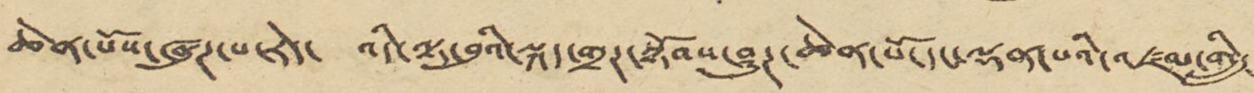ཆེན་པོས་ཞུཊ་པ་རེད་ འདི་ལྟ་བུའི་སྐད་གྲཊ་སྟོབས་ཤུཊ་ཆེན་པོ་དང་ལྡན་པའི་འཛམ་གླིང་
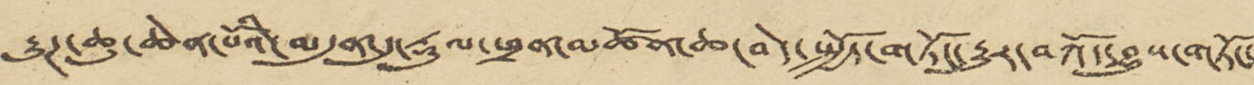རྒྱུཊ་ཆུ་ཆེན་པོའི་མདུན་དུ་རྡུལ་ཕྲན་མཚོན་ཆ་བེད་སྤྱོད་གཏོང་རྒྱུར་བཀོད་བྱུས་གཏོང་་
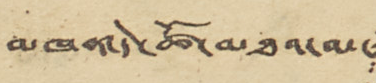མཁན་དེ་ཚོ་མཐའ་མ་
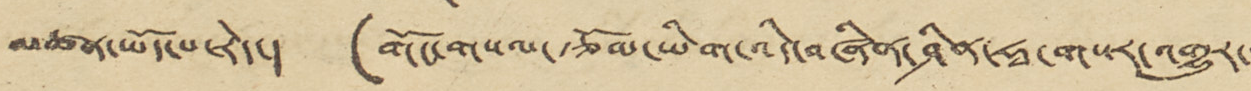མཚན་ཡོད་པ་རེད་། ་(གོང་གསལ་རྩོམ་ཡིག་འདི་བཞིན་ཤིན་ཧྭ་གསར་འགྱུར་་་
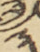༣
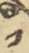༡
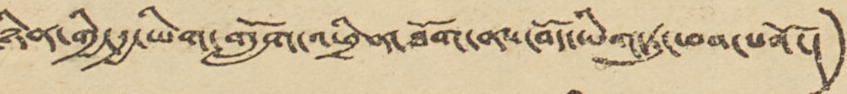ཉིན་གྱི་རྒྱ་ཡིག་གློག་འཕྲིན་ཐོག་ནས་བོད་ཡིག་ཏུ་ཕབ་པའོ་།)
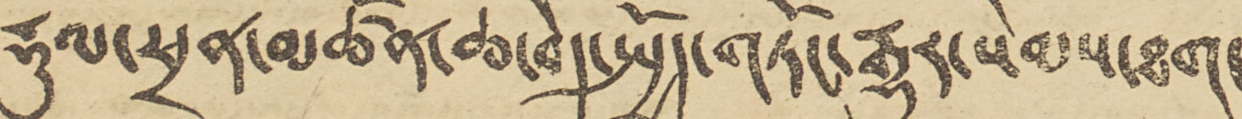རྡུལ་ཕྲན་མཚོན་ཆ་བེད་སྤྱོད་གཏོང་རྒྱུར་སེམས་ཐག་
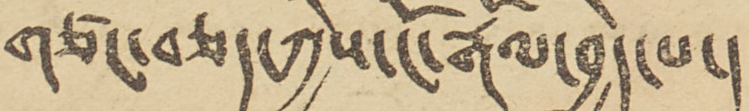གཙང་བཅད་ཀྱིས་ངོ་རྒོལ་བྱེད་པ་།
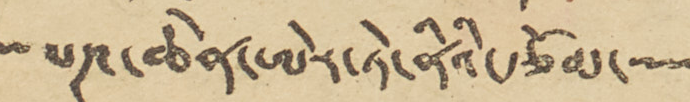པཎ་ཆེན་ཨེར་ཏེ་ནིའི་རྩོམ་
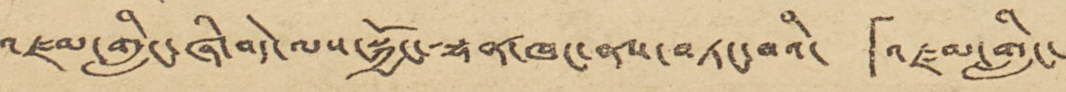འཛམ་གླིང་ཞི་བདེ་ལས་སྐྱོང་ལྷན་ཁང་ནས་བཏང་བའི་ 「འཛམ་གླིང་
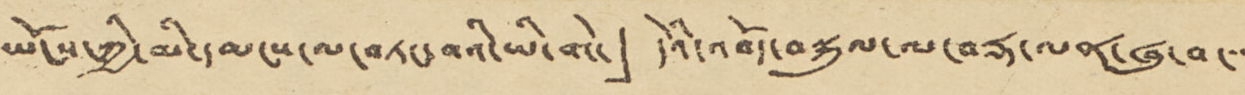ཡོངས་ཀྱི་མི་དམངས་ལ་བཏང་བའི་ཡི་གེ་」 དེའི་འབོད་བསྐུལ་ལ་བརྡ་ལན་ཞུ་བ་་་
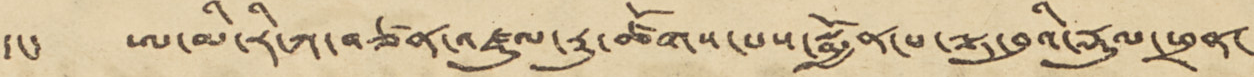དང་ ཨ་མི་རི་ཀ་བཙན་འཛུལ་རུ་ཚོགས་པས་སྨྱོན་པ་ལྟ་བུའི་རྡུལ་ཕྲན་
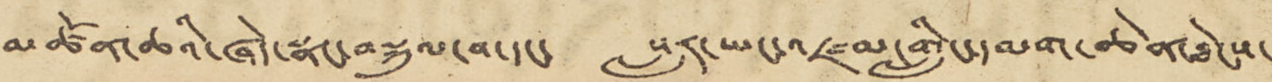མཚོན་ཆའི་ཞེད་སྣང་བསྐུལ་བ་དང་ སླར་ཡང་འཛམ་གླིང་དམག་ཆེན་ཐེངས་
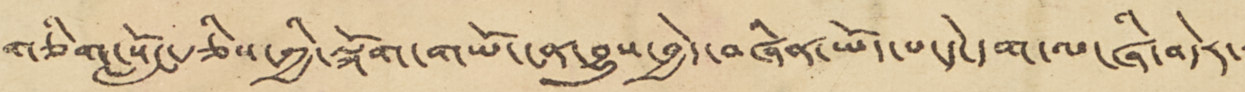གཅིག་སློང་རྩིས་ཀྱི་ལྐོག་གཡོ་ངན་བྱུས་བྱེད་བཞིན་ཡོད་པ་དེ་དག་ལ་ཞི་བདེར་་་
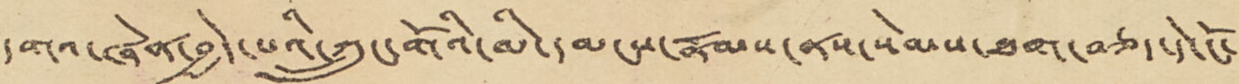དགའ་ཞེན་བྱེད་པའི་ཀྲུང་གོའི་མི་དམངས་རྣམས་ནས་སེམས་ཐག་བཅད་དེ་ངོ་
